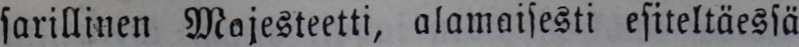sarillinen Majesteetti, alamoisesti esiteltäessä
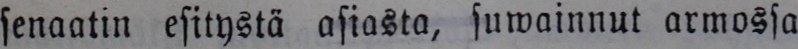senaatin esitystä asiasta, suwainnut armossa
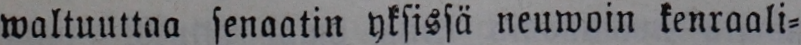waltuuttaa senaatin yksissä neuwoin kenraali-
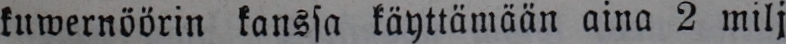kuwernöörin kanssa käyttämään aina 2 milj
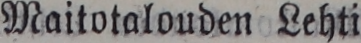Maitotalouden Lehti.
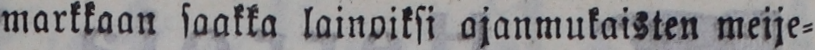markkaan saakka lainoiksi ajanmukaisten meije-
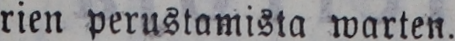rien perustamista warten.
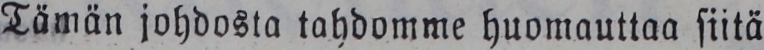Tämän johdosta tahdomme huomauttaa siitä
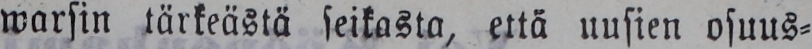warsin tärkeästä seikasta, että uusien osuus-
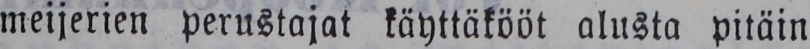meijerien perustajat käyttäkööt alusta pitäin
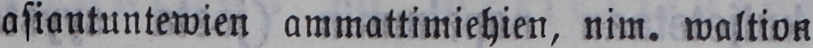asiantuntewien ammattimiehien, nim. waltion
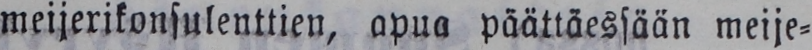meijerikonsulenttien, apua päättäessään meije-
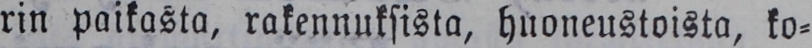rin paikasta, rakennuksista, huoneustoista, ko-
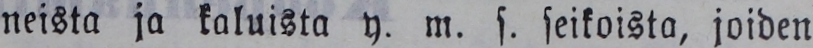neista ja kaluista y. m. s. seikoista, joiden
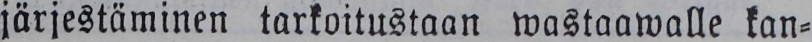järjestäminen tarkoitustaan wastaawalle kan-
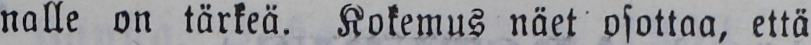nalle on tärkeä. Kokemus näet osottaa, että
